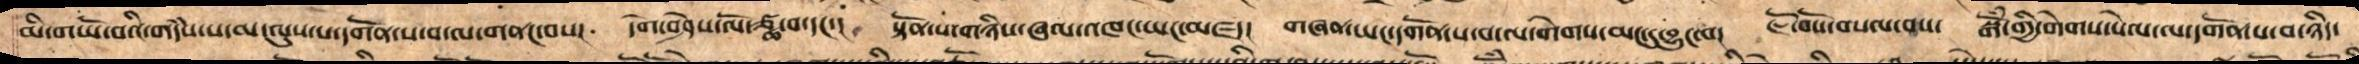མི་གཡོ་བའི་གདཾས་པ་མ་ལུས་པ་དགོན་པ་བ་ལ་གནང་བས།  དགེ་བཤེས་ལོཙྪ་བ་དང་།  སྟོན་པ་གཉིས་ཞལ་འཁང་ཡང་མཛད།   གཞན་ཡང་དགོན་པ་བ་ལ་གེགས་མང་དུ་བྱུང་ལ།   ཇོ་བོས་བསལ་བས།   སྒོཾ་གྱི་གེགས་སེལ་ལ་དགོན་པ་བ་ཉིད་
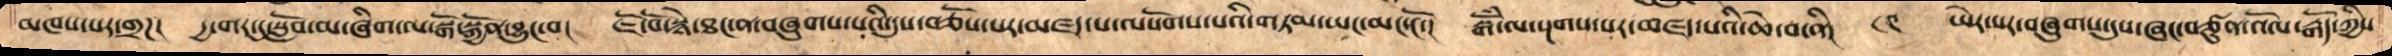མཁས་པར་གྲཌ།   དྱ་གར་དུ་སློབ་མ་ཞིག་ལ་སྒོ་སྐྱོན་བྱུང་བ།   ཇོ་བོ་སྙེ་ཐང་ན་བཞུགས་པའི་དུས་བཅོས་པར་མཛད་པ་ལསོགས་པའི་གཏམ་ཡང་མང་ངོ་།   སྒོཾ་ལ་སྔགས་པར་མཛད་པའི་ཆེ་བ་ནི།  ༨༤ ཡེར་པར་བཞུགས་དུས་ཞང་བཙུན་འོལ་རྒོད་ཀྱིས
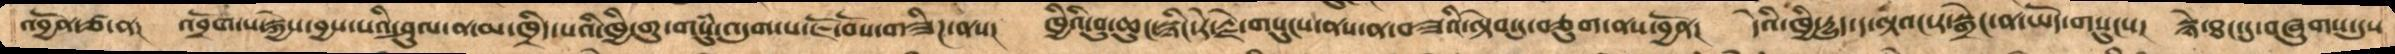འབྱོན་ཙ་ན།   འབྲོག་པ་སྐྱེས་བྱས་པའི་ཤུལ་ན་མ་ཁྲིད་པའི་ཁྱི་གུ་གསུཾ་འདུག་པ་ཇོ་བོས་གཟིཌ་ནས།    ཁྱིའི་བུ་ཆུང་སྙིང་རེ་རྗེ་གསུངས་ནས་ན་བཟའི་ལྟེབ་དུ་བཅུག་ནས་བྱོན།    དེའི་ཁྱི་དྱུད་ད་ལྟའང་ར་སྒྲེང་ན་ཡོད་གསུངས།   སྙེ་ཐང་དུ་བཞུགས་དུས
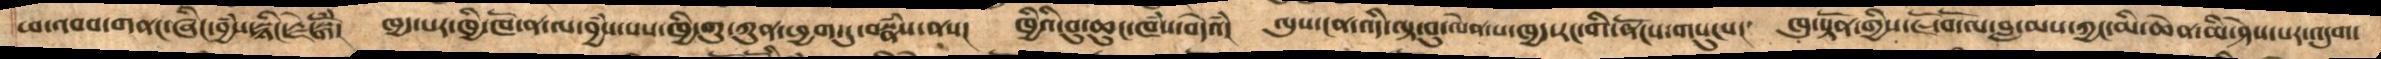ཕ་འབབ་གནང་ཞིང་བྱཾས་སྙིང་རྗེ་སྒོཾ།   ཁྱད་པར་ཁྱི་ཁོ་ན་ལ་བྱཾས་པས་ཁྱི་གུ་ཀུན་ཕྱག་དུ་བསྣཾས་ནས།  ཁྱིའི་བུ་ཆུང་ཁཾས་བདེའཾ།   ལུས་ངན་འདི་ལྟ་བུ་ལེན་པ་ཁྱད་རང་གི་ནོངས་གསུངས།   ཁུ་སྟོན་གྱིས་ཇོ་བོ་ལ་བླ་མས་ཀྱང་མི་ཆེན་མི་ཤེས་པར་འདུག་
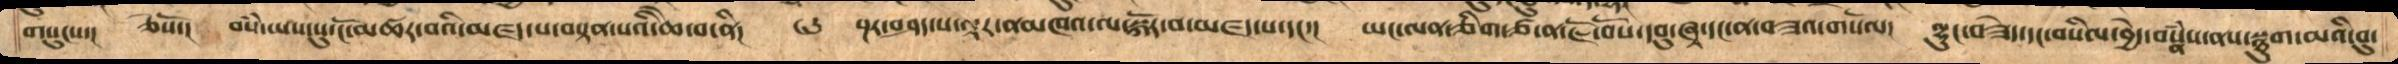གསུངས།   ཅེསོ་།   བསཾ་ཡས་སུ་ངོ་མཚར་བའི་མཛད་པ་བསྟན་པའི་ཆེ་བ་ནི།  ༨༦  སྔར་བཤད་པ་ལྟར་ནམཁའ་ལ་སྐོར་བ་མཛད་པ་དང་།  ཡང་ལན་ཅིག་ཙ་ན་ཇོ་བོས་དབུ་ཞྭ་དང་ན་བཟའ་གསོལ།   ལྷུད་བཟེད་དང་གསིལ་བྱེད་བསྣཾས་ནས་སྙུག་མའི་བུ་
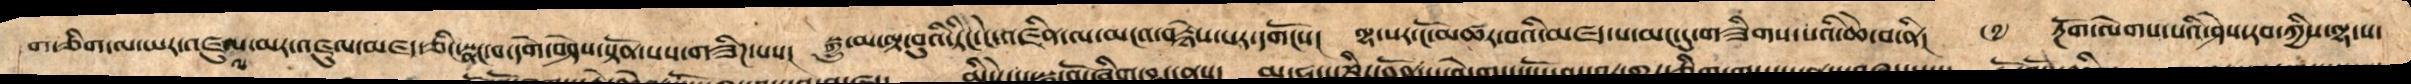ག་ཅིག་ལ་ཡར་འཛུལ་ལ་མར་འཛུལ་མཛད་ཀྱི་སྣང་བ་དགེ་བཤེས་སྟོན་པས་གཟིཌ་པས། སྒྱུ་མ་ལྟ་བུའི་ཏིང་ངེ་འཛིན་ལ་མངའ་བརྙེས་པར་དགོངས། ལྷ་སར་ངོ་མཚར་བའི་མཛད་པ་མང་དུ་གཟིགས་པའི་ཆེ་བ་ནི། ༩༧ རྔོག་ལེགས་པའི་ཤེས་རབ་ཀྱིས་ལྷ་ས་
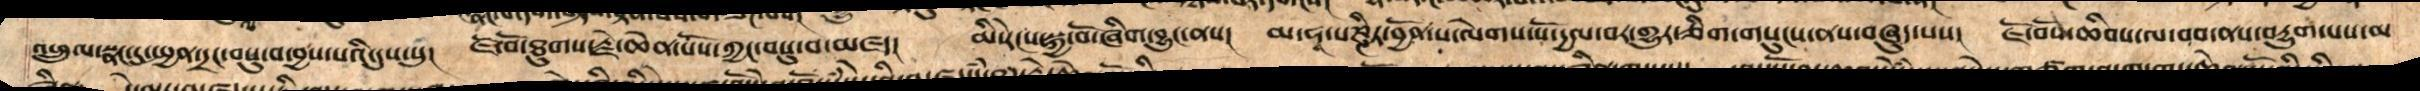འཕྲུལ་སྣང་དུ་སྤྱན་དྲང་བསུ་བ་བྱས་པའི་དུས་སུ། ཇོ་བོ་ཐུགས་རྗེ་ཆེན་པོས་ཀྱངབསུ་བ་མཛད། མི་རེངས་སྐྱ་བོ་ཞིག་བྱུང་ནས། མ་ཧཱ་པཎྜིཏ་བྱོན་པ་ལེགས་སོ་དྱལ་བར་གྱུར་ཅིག་གསུངས་ནས་བཞུད་པས། ཇོ་བོས་ཆིབས་ལ་བབ་ནས་བདྱུག་པས་མ
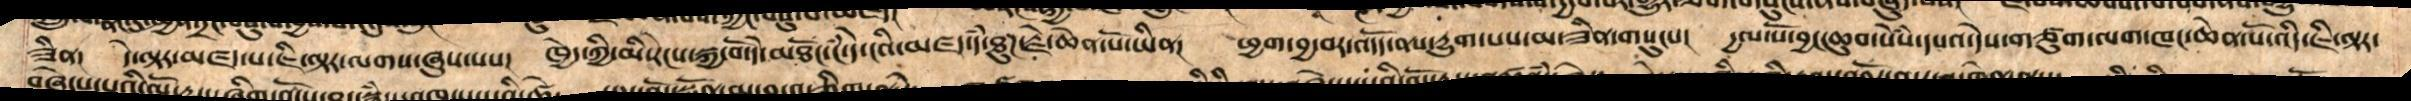ཟིན། དེ་ལྟར་མཛད་པ་ཇི་ལྟར་ལགས་ཞུས་པས། ཁྱེད་ཀྱི་མི་རེངས་སྐྱ་བོ་དེ་མཐོང་ངཾ་དེ་ངའི་མཛད་དཾ་ཐུཌ་རྗེ་ཆེན་པོ་ཡིན། ཕྱག་བྱ་བར་འདོད་ནས་དྱུག་པས་མ་ཟིན་གསུངས། དྱལ་པོ་བྱང་ཆུབ་སེཾས་དཔའ་དེས་གཙུག་ལག་ཁང་ཆེན་པོ་འདི་ཇི་ལྟར་
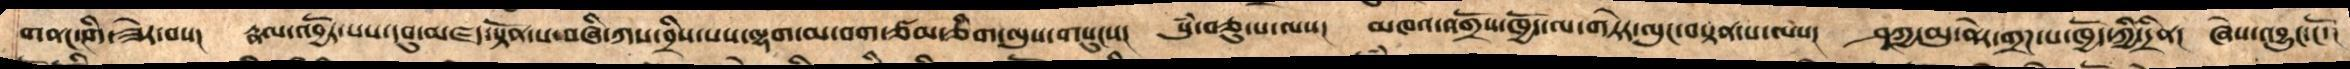གནང་གི་ཟེར་བས།  རྣལ་འབྱོར་པས་དབུ་མཛད་སྟོན་པ་བཞི་ཀས་བྲིས་པས་ལྷག་མ་བག་ཙམ་ཅིག་ལུས་གསུངས།   སུཾ་བཅུ་པ་ལས།  མཁའ་འགྲོས་ཁྱོད་ལ་གཏེར་ལུང་བསྟན་པ་ལས།     ཤཱཀྱ་མུ་ནེར་གྲཌ་པ་ཁྱོད་ཀྱི་དྲིན།  ཞེས་འབྱུང་ངོ་།
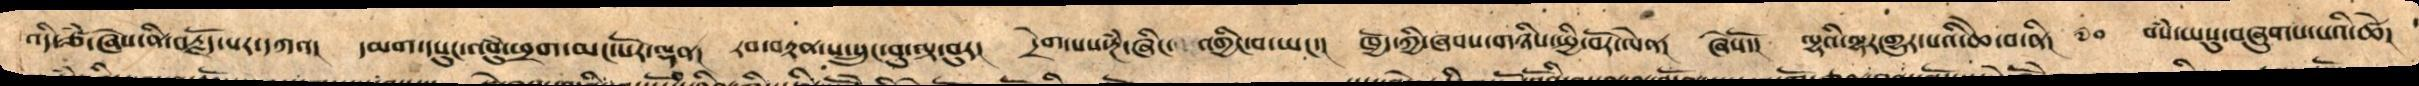འདི་ཙཾ་ཞེས་ནི་བརྗོད་པར་དཀའ།   དམག་དཔུང་འབུཾ་ཕྲག་མང་པོར་ལྡན།  རབ་བརྟན་ས་སྲུང་བུ་ལྟ་བུར།  དྲེགས་པས་རྔཾ་ཞིང་ འགྱིང་བ་ཡང་།  ཁྱོད་ཀྱི་ཞབས་གཉིས་སྤྱི་བོར་ལེན།   ཞེསོ་།   ལྷའི་ལྷར་གྱུར་པའི་ཆེ་བ་ནི།  ༧༠  བསཾ་ཡསུ་བཞུགས་པའི་ཚེ།
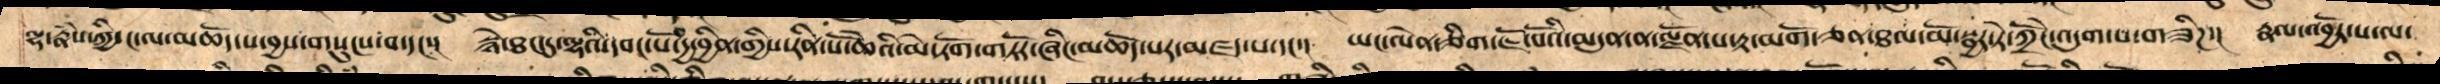ལྷ་རྣཾས་ཀྱི་ང་ལ་མཆོད་པ་བྱས་གསུངས་བ་དང་།   སྙེ་ཐང་དུ་ལྷའི་དབང་པོ་བདྱ་བྱིན་གྱིས་རིན་པོ་ཆེའི་མེ་ཏོག་གཏོར་ཞིང་མཆོད་པར་མཛད་པ་དང་།   ཡང་ལེན་ཅིག་ཇོ་བོའི་མདུན་ན་ལྗོན་པ་རྟ་མགོ་ཅན་ཐལ་མོ་སྦྱར་ཏེ་ཀྲོངེ་འདུག་པ་གཟིཌ་། རྣལ་འབྱོར་པ་ལ་
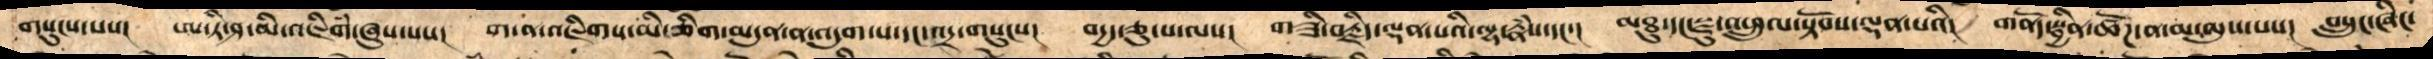གསུངས་པས།  ཨ་ཏི་ཤ་མི་འཇིགཾ་ཞུས་པས།  ག་ན་འཇིགས་མི་ཅིག་མདུན་ན་འདུག་པ་དང་འདྲ་གསུངས།  བདྱད་ཅུ་པ་ལས།  གཟི་བརྗིད་ལྡན་པའི་ལྷ་རྣཾས་དང་།  མཐུ་དང་སྫུ་འཕྲུལ་སྟོབས་ལྡན་པའི།  གནོད་སྦྱིན་ཚོཌ་ན་མ་ལུས་པས།  བསྲུང་ཞིང་
